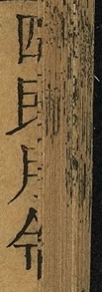四民月令
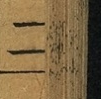二
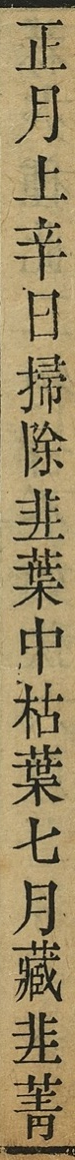正月上辛日掃除韭葉中枯葉七月藏韭菁
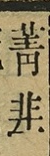菁韭
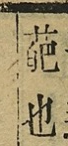葩也
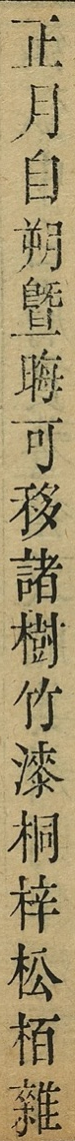正月自朔暨晦可移諸樹竹漆桐梓松柏雜
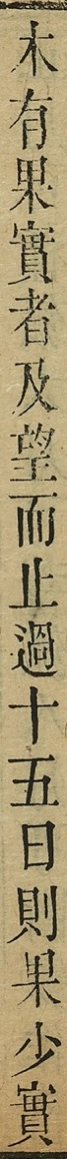木有果實者及望而止過十日則果少實
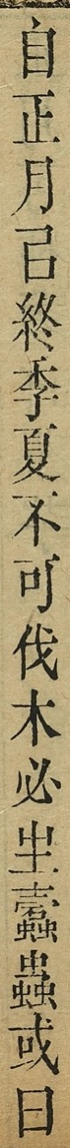自正月以終季夏不可伐木必生蠹蟲或曰
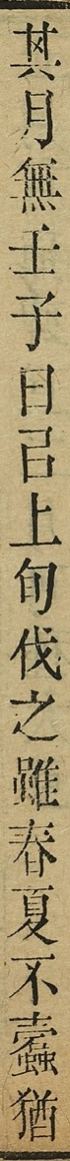其月無壬子日以上旬伐之雖春夏不蠹猶
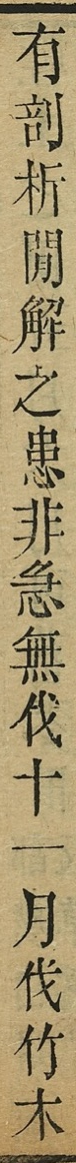有剖析閒解之患非急無伐十一月伐竹木
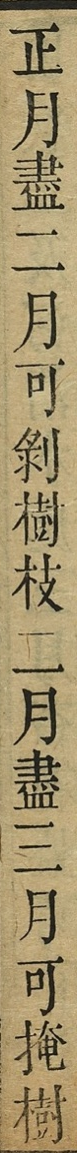正月盡二月可剝樹枝二月盡三月可掩樹
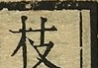枝
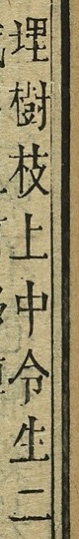埋樹枝上中令生二
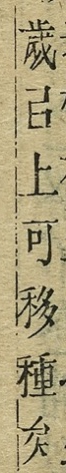歲以上可移種矣
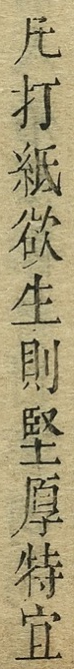凡打紙欲生則堅厚特宜
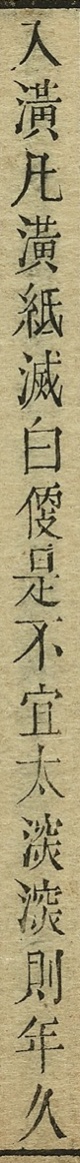入潢凡潢紙滅白便是不宜太㴱㴱則年久
